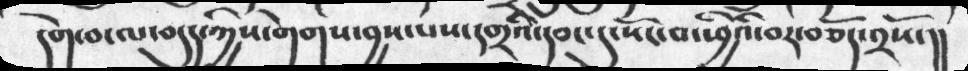དགེ་བ་ལ་བདུད་ཀྱིས་གེགས་བྱས་པས་དགྲའི་དབང་དུ་སོང་བ་ཕྱིའི་བར་བཅོད་༢སོ་།།
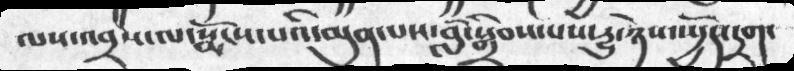ལས་འབྲས་ལ་སྨོངས་པའི་མུན་པས་བློ་སྒྲིབས་པས་རྱུ་ཉེས་སྤྱོད་དྲག་
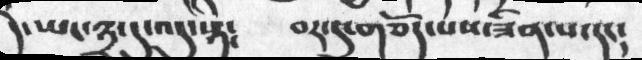དེ་ཡང་༣་དུ་འདུ་སྟེ༴   བར་དུ་གཅོད་པས་ཟིན་པ་དང༴
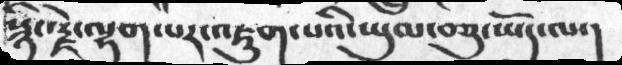སྙིང་རྗེ་ལྷག་པར་འཇུག་པའི་ཡུམ་བཅུ་ཡོད་ལ་།
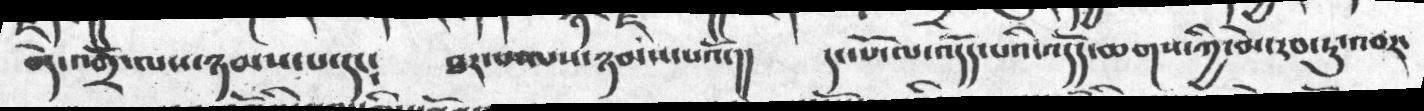བདེ་འགྲོ་ལས་ཉམས་པ་དང༴  ཐར་པ་ལས་ཉམས་པའོ་།།  དང་པོ་ལ་འདོད་པའི་འདོད་ཆགས་ཀྱི་མེ་རབ་ཏུ་འབར་
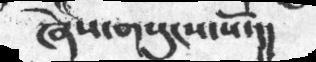ཞེས་གསུགས་སོ་།།
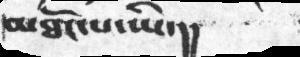མཐོང་པ་ཡི་།།
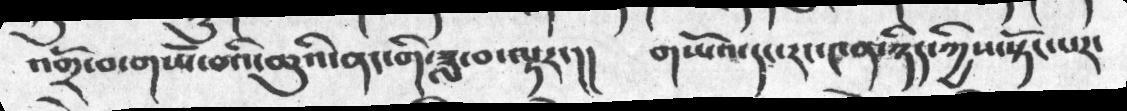འགྲོ་བ་གཡོ་བའི་ཆུའི་ནང་གི་ཟླ་བ་ལྟར་།།   གཡོའ་དང་རང་༤ན་ཉིད་ཀྱིས་སྟོང་པར་
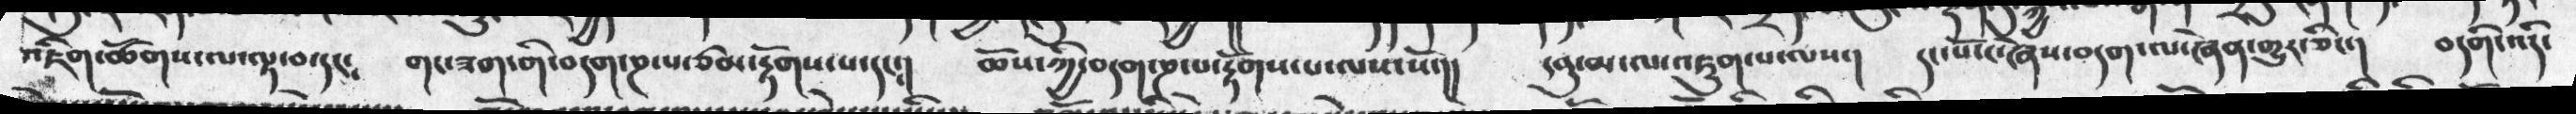འཇིག་ཚོགས་ལ་ལྟ་བ་དང༴   གང་ཟག་གི་བདག་ཎ་པ་ཙམ་རྟོགས་པ་དང༴།  ཆོས་ཀྱི་བདག་ཎ་པ་རྟོགས་པ་ལས་སོ་།།  དབུ་མ་ལ་འཇུག་པ་ལས་།  དང་པོས་ཞེས་བདག་ལ་ཞེན་གྱུར་ཅིང་།  བདགི་འདོ་
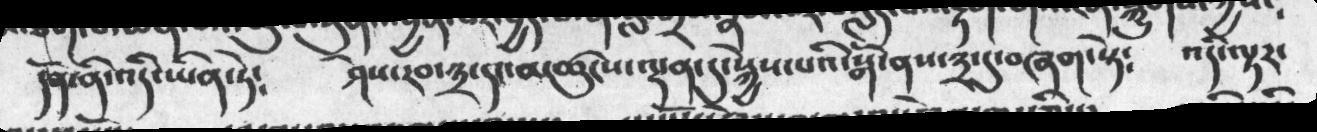དོན་ནི་འདི་ཡིན་ཏེ༴  ཤེས་རབ་༣་དང་མཚུངས་ལྡན་དུ་སྐྱེས་པའི་སྒོ་ནས་༣་དུ་བཞག་སྟེ༴  འདི་ལྟར་
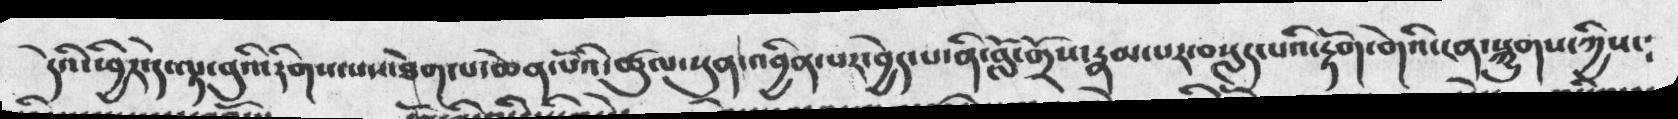དེའི་ཕྱིར་དེ་ལྟ་བུའི་རིགས་པས་ཐེག་པ་ཆེན་པོའི་ཚུལ་སུན་འབྱིན་པར་བྱེད་པ་ནི་བློ་གྲོས་རྣམ་པར་བསླད་པའི་རྟོག་གེའི་ངན་སྐུགས་ཀྱིས༴
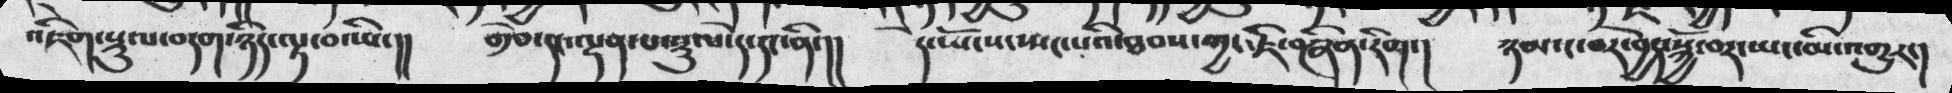འཇིག་སྡུག་བདག་ཉིད་ལྟ་བ་ཡི་།།  བརྩེ་དང་ལྡན་པ་སྡུལ་དེ་དང་ནི་།།   དེ་སྤོངས་སྤང་པའི་ཐབས་ཀྱང་ཇི་བཞིན་རིག་།   ཉམ་ང་་བར་བྱེད་སྐྱོ་བར་ཡང་མི་འགྱུར་།
